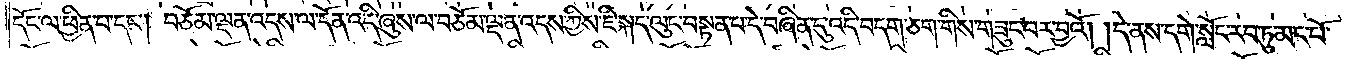དོང་ལ་ཕྱིན་པ་དང༌། བཅོམ་ལྡན་འདས་ལ་དོན་འདི་ཞུས་ལ་བཅོམ་ལྡན་འདས་ཀྱིས་ཇི་སྐད་ལུང་བསྟན་པ་དེ་བཞིན་དུ་འདི་བདག་ཅག་གིས་གཟུང་བར་བྱའོ། །དེ་ནས་དགེ་སློང་རབ་ཏུ་མང་པོ་
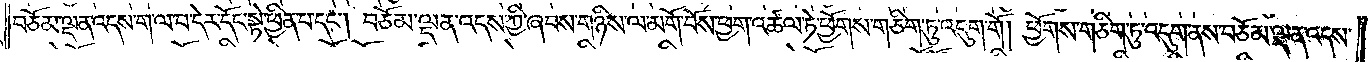བཅོམ་ལྡན་འདས་ག་ལ་བ་དེར་དོང་སྟེ་ཕྱིན་པ་དང༌། བཅོམ་ལྡན་འདས་ཀྱི་ཞབས་གཉིས་ལ་མགོ་བོས་ཕྱག་འཚལ་ཏེ་ཕྱོགས་གཅིག་ཏུ་འདུག་གོ། ཕྱོགས་གཅིག་ཏུ་འདུག་ནས་བཅོམ་ལྡན་འདས་
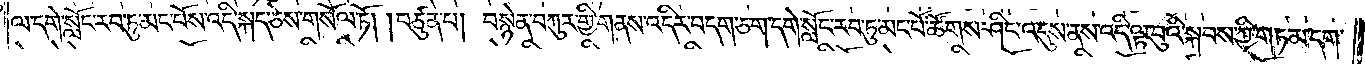ལ་དགེ་སློང་རབ་ཏུ་མང་པོས་འདི་སྐད་ཅེས་གསོལ་ཏོ། །བཙུན་པ། བསྙེན་བཀུར་གྱི་གནས་འདིར་བདག་ཅག་དགེ་སློང་རབ་ཏུ་མང་པོ་ཚོགས་ཤིང་འདུས་ནས་འདི་ལྟ་བུའི་སྐབས་ཀྱི་གཏམ་དག་
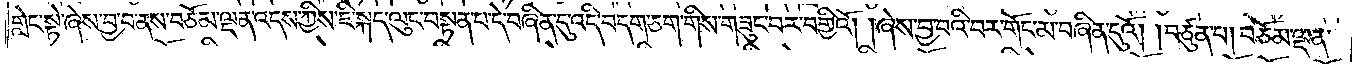གླེང་སྟེ་ཞེས་བྱ་བ་ནས་བཅོམ་ལྡན་འདས་ཀྱིས་ཇི་སྐད་ལུང་བསྟན་པ་དེ་བཞིན་དུ་འདི་བདག་ཅག་གིས་གཟུང་བར་བགྱིའོ། །ཞེས་བྱ་བའི་བར་གོང་མ་བཞིན་དུའོ། །བཙུན་པ། བཅོམ་ལྡན་
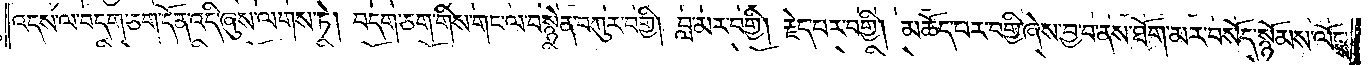འདས་ལ་བདག་ཅག་དོན་འདི་ཞུས་ལགས་ཏེ། བདག་ཅག་གིས་གང་ལ་བསྙེན་བཀུར་བགྱི། བླ་མར་བགྱི། རྗེད་པར་བགྱི། མཆོད་པར་བགྱི་ཞེས་བྱ་བ་ནས་ཐོག་མར་བསོད་སྙོམས་ལོངས་
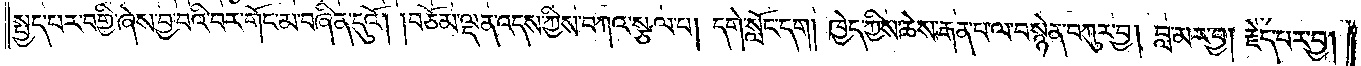སྤྱད་པར་བགྱི་ཞེས་བྱ་བའི་བར་གོང་མ་བཞིན་དུའོ། །བཅོམ་ལྡན་འདས་ཀྱིས་བཀའ་སྩལ་པ། དགེ་སློང་དག། ཁྱེད་ཀྱིས་ཆེས་རྒན་པ་ལ་བསྙེན་བཀུར་བྱ། བླ་མར་བྱ། རྗེད་པར་བྱ།
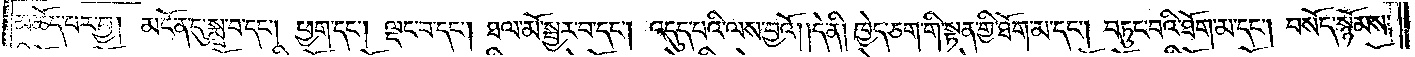མཆོད་པར་བྱ། མངོན་དུ་སྨྲ་བ་དང༌། ཕྱག་དང༌། ལྡང་བ་དང༌། ཐལ་མོ་སྦྱར་བ་དང༌། འདུད་པའི་ལས་བྱའོ། །དེ་ནི། ཁྱེད་ཅག་གི་སྟན་གྱི་ཐོག་མ་དང༌། བཏུང་བའི་ཐོག་མ་དང༌། བསོད་སྙོམས་
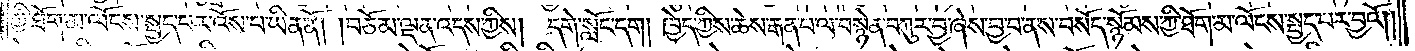ཀྱི་ཐོག་མ་ལོངས་སྤྱད་པར་འོས་པ་ཡིན་ནོ། །བཅོམ་ལྡན་འདས་ཀྱིས། དགེ་སློང་དག། ཁྱེད་ཀྱིས་ཆེས་རྒན་པ་ལ་བསྙེན་བཀུར་བྱ་ཞེས་བྱ་བ་ནས་བསོད་སྙོམས་ཀྱི་ཐོག་མ་ལོངས་སྤྱད་པར་བྱའོ། །
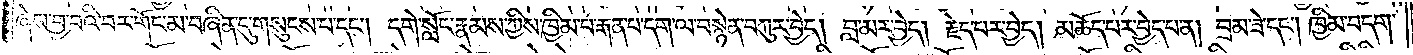ཞེས་བྱ་བའི་བར་གོང་མ་བཞིན་དུ་གསུངས་པ་དང༌། དགེ་སློང་རྣམས་ཀྱིས་ཁྱིམ་པ་རྒན་པ་དག་ལ་བསྙེན་བཀུར་བྱེད། བླ་མར་བྱེད། རྗེད་པར་བྱེད། མཆོད་པར་བྱེད་པ་ན། བྲམ་ཟེ་དང༌། ཁྱིམ་བདག་
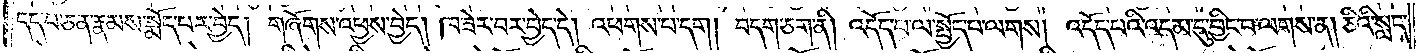དད་པ་ཅན་རྣམས་སྨོད་པར་བྱེད། གཞོགས་འཕྱས་བྱེད། ཁ་ཟེར་བར་བྱེད་དེ། འཕགས་པ་དག། བདག་ཅག་ནི། འདོད་པ་ལ་སྤྱོད་པ་ལགས། འདོད་པའི་འདམ་དུ་བྱིང་བ་ལགས་ན། ཅིའི་སླད་
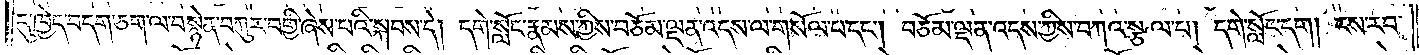དུ་ཁྱེད་བདག་ཅག་ལ་བསྙེན་བཀུར་བགྱི་ཞེས་པའི་སྐབས་དེ། དགེ་སློང་རྣམས་ཀྱིས་བཅོམ་ལྡན་འདས་ལ་གསོལ་པ་དང༌། བཅོམ་ལྡན་འདས་ཀྱིས་བཀའ་སྩལ་པ། དགེ་སློང་དག། ངས་རབ་
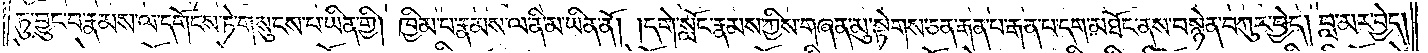ཏུ་བྱུང་བ་རྣམས་ལ་དགོངས་ཏེ་གསུངས་པ་ཡིན་གྱི། ཁྱིམ་པ་རྣམས་ལ་ནི་མ་ཡིན་ནོ། །དགེ་སློང་རྣམས་ཀྱིས་གཞན་མུ་སྟེགས་ཅན་རྒན་པ་རྒན་པ་དག་མཐོང་ནས་བསྙེན་བཀུར་བྱེད། བླ་མར་བྱེད།
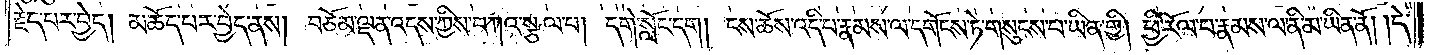རྗེད་པར་བྱེད། མཆོད་པར་བྱེད་ནས། བཅོམ་ལྡན་འདས་ཀྱིས་བཀའ་སྩལ་པ། དགེ་སློང་དག། ངས་ཆོས་འདི་པ་རྣམས་ལ་དགོངས་ཏེ་གསུངས་པ་ཡིན་གྱི། ཕྱི་རོལ་བ་རྣམས་ལ་ནི་མ་ཡིན་ནོ། །དེ་
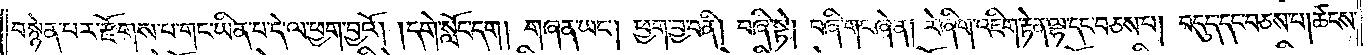བསྙེན་པར་རྫོགས་པ་གང་ཡིན་པ་དེ་ལ་ཕྱག་བྱའོ། །དགེ་སློང་དག། གཞན་ཡང༌། ཕྱག་བྱ་བ་ནི། བཞི་སྟེ། བཞི་གང་ཞེ་ན། རེ་ཞིག་འཇིག་རྟེན་ལྷ་དང་བཅས་པ། བདུད་དང་བཅས་པ། ཚངས་
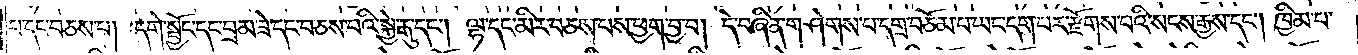པ་དང་བཅས་པ། དགེ་སྦྱོང་དང་བྲམ་ཟེ་དང་བཅས་པའི་སྐྱེ་རྒུ་དང༌། ལྷ་དང་མིར་བཅས་པས་ཕྱག་བྱ་བ། དེ་བཞིན་གཤེགས་པ་དགྲ་བཅོམ་པ་ཡང་དག་པར་རྫོགས་པའི་སངས་རྒྱས་དང༌། ཁྱིམ་པ་
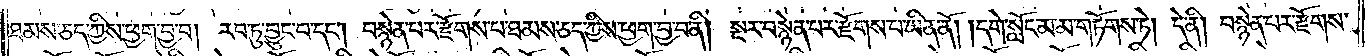ཐམས་ཅད་ཀྱིས་ཕྱག་བྱ་བ། རབ་ཏུ་བྱུང་བ་དང༌། བསྙེན་པར་རྫོགས་པ་ཐམས་ཅད་ཀྱིས་ཕྱག་བྱ་བ་ནི། སྔར་བསྙེན་པར་རྫོགས་པ་ཡིན་ནོ། །དགེ་སློང་མ་མ་གཏོགས་ཏེ། དེ་ནི། བསྙེན་པར་རྫོགས་
